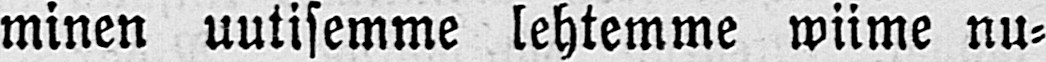minen uutisemme lehtemme wiime nu-
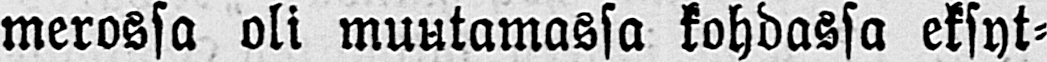merossa oli muutamassa kohdassa eksyt-
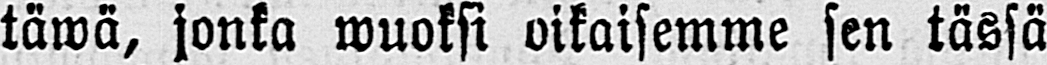täwä, jonka wuoksi oikaisemme sen tässä
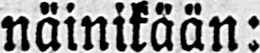näinikään:
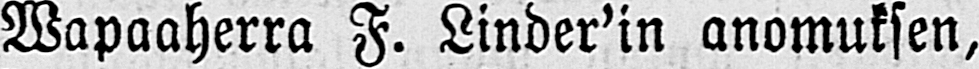Wapaaherra F. Linder’in anomuksen,
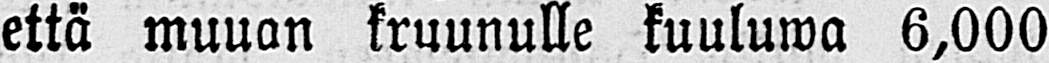että muuan kruunulle kuuluwa 6,000
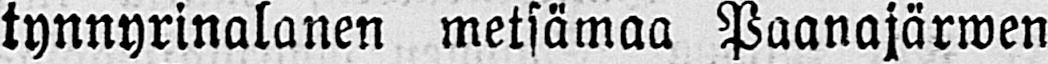tynnyrinalanen metsämaa Paanajärwen
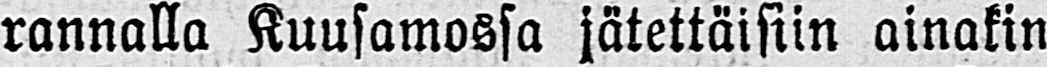rannalla Kuusamossa jätettäisiin ainakin
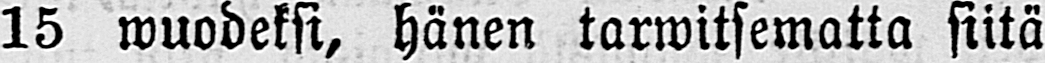15 wuodeksi, hänen tarwitsematta siitä
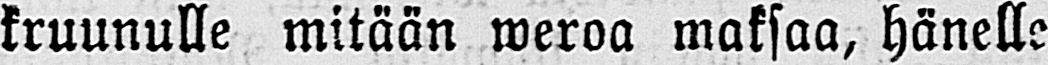kruunulle mitään weroa maksaa, hänelle
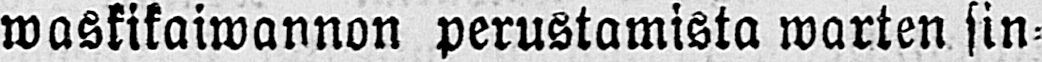waskikaiwannon perustamista warten sin-
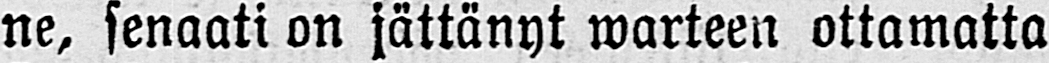ne, senaati on jättänyt warteen ottamatta
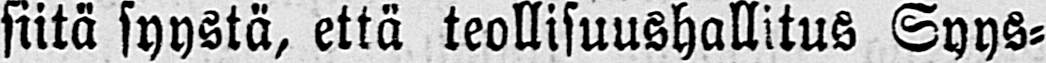siitä syystä, että teollisuushallitus Syys-
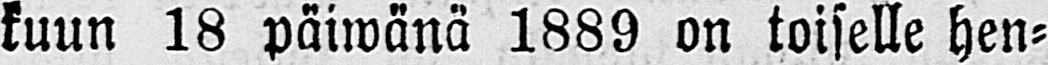kuun 18 päiwänä 1889 on toiselle hen-
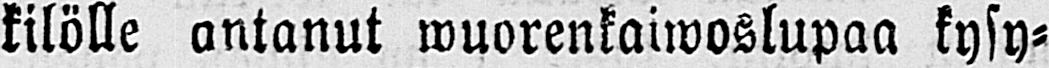kilölle antanut wuorenkaiwoslupaa kysy-
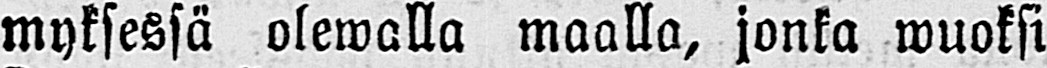myksessä olewalla maalla, jonka wuoksi
